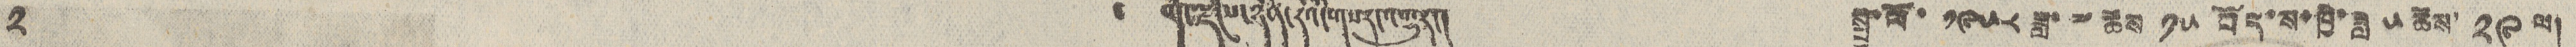༢ ༄ བོད་ལྗོངས་ཉིན་རེའི་གསར་འགྱུར། སྤྱི་ལོ་ ༡༩༥༨ ཟླ་ ༧ ཚེས་ ༡༥ བོད་ས་ཁྱི་ཟླ ༥ ཚེས་ ༢༩ ལ།
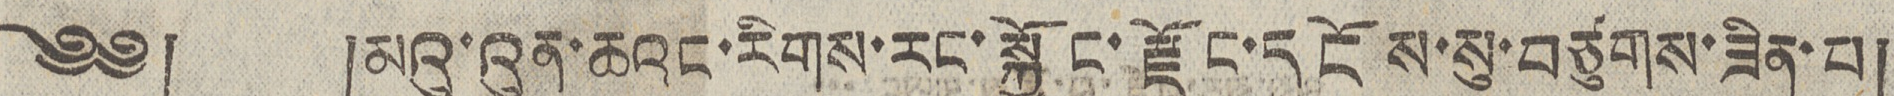༄༅། །མའུ་འུན་ཆའང་རིགས་རང་སྐྱོང་རྫོང་དངོས་སུ་བཙུགས་ཟིན་པ།
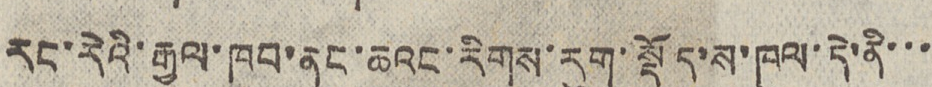རང་རེའི་རྒྱལ་ཁབ་ནང་ཆའང་རིགས་རུག་སྡོད་ས་ཁུལ་དེ་ནི་་་
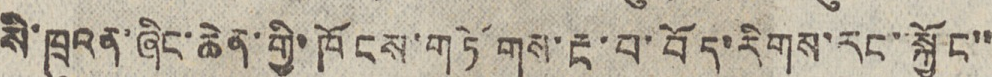སི་ཁྲུའན་ཞིང་ཆེན་གྱི་ཁོངས་གཏོགས་རྔ་བ་བོད་རིགས་རང་སྐྱོང་་
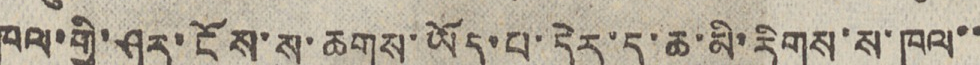ཁུལ་གྱི་ཤར་ངོས་སུ་ཆགས་ཡོད་པ་དེར་ད་ཆ་མི་རིགས་ས་ཁུལ་་
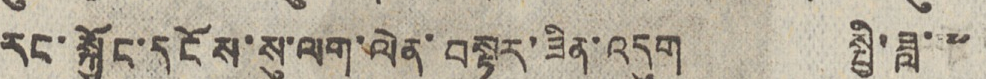རང་སྐྱོང་དངོས་སུ་ལག་ལེན་བསྟར་ཟིན་འདུག སྤྱི་ཟླ་ ༧
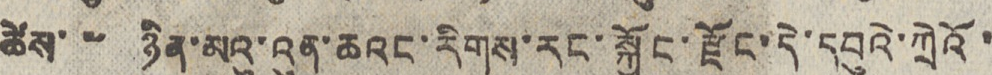ཚེས་ ༧ ཉིན་མའུ་འུན་ཆའང་རིགས་རང་སྐྱོང་རྫོང་དེ་དབུའེ་ཀྲེའོ་
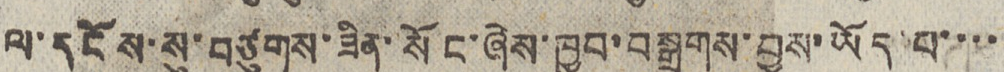ལ་དངོས་སུ་བཙུགས་ཟིན་སོང་ཞེས་ཁྱབ་བསྒྲགས་བྱས་ཡོད་པ་་་་
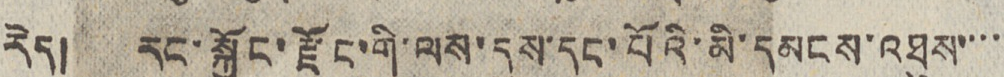རེད། རང་སྐྱོང་རྫོང་གི་ལས་དུས་དང་པོའི་མི་དམངས་འཐུས་་་་
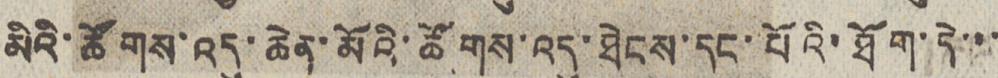མིའི་ཚོགས་འདུ་ཆེན་མོའི་ཚོགས་འདུ་ཐེངས་དང་པོའི་ཐོག་དེ་་་
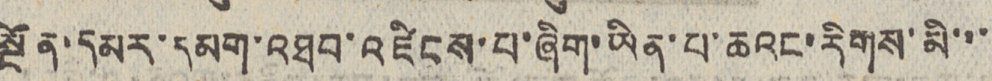སྔོན་དམར་དམག་འཐབ་འཛིངས་པ་ཞིག་ཡིན་པ་ཆའང་རིགས་མི་་་
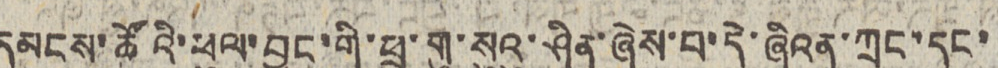དམངས་ཚོའི་ཕུལ་བྱུང་གི་ཕྲུ་གུ་སུའུ་ཤིན་ཞེས་པ་དེ་ཞིའན་ཀྲང་དང་
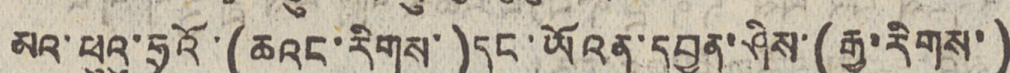མའ་ཕུའུ་ཧྲའོ་(ཆའང་རིགས་)དང་ཡོའན་དབྱུན་ཤིས་(རྒྱ་རིགས་)
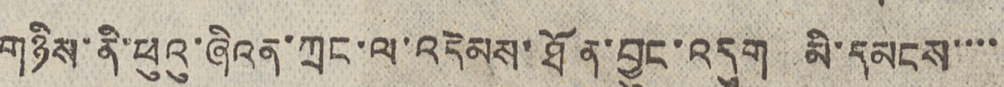གཉིས་ནི་ཕུའུ་ཞིའན་ཀྲང་ལ་འདེམས་ཐོན་བྱུང་འདུག མི་དམངས་་་་
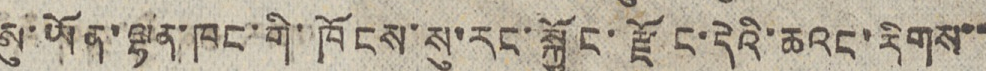ཨུ་ཡོན་ལྷན་ཁང་གི་ཁོངས་སུ་རང་སྐྱོང་རྫོང་དེའི་ཆའང་རིགས་་
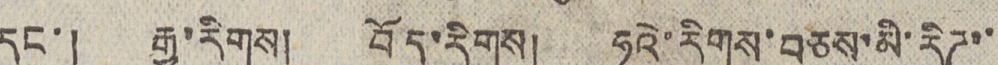དང་། རྒྱ་རིགས། བོད་རིགས། ཧུའེ་རིགས་བཅས་མི་རིཊ་་
